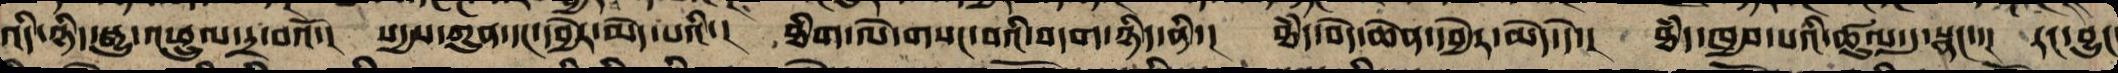འདི་ཉིད་སྒྱུ་འཕྲུལ་དྲ་བའོ་། སདྱས་ཀུན་དང་དབྱེར་མེད་པའི་། ཐིག་ལེ་གསང་བའི་བདག་ཉིད་ནི་། ཐཾད་བདེ་ཆེན་དབྱེར་མེད་དེ་། ཐཾད་ཁྱབ་པའི་ཚུལ་དུ་སྣང་་། རང་བྱུང
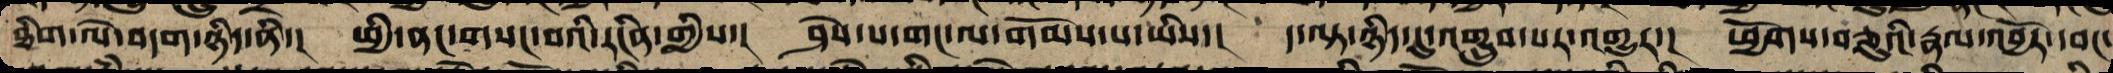ཐིག་ལེ་བདག་ཉིད་ནི་། ཕྱི་ནང་གསང་བའི་རངིན་གྱིས་། ཤེས་པ་གང་ལ་གོམས་པ་ཡིས་། ད་ལྟ་ཉིད་དུ་འགྲུབ་པར་འགྱུར་། ཕྱོགས་བཅུའི་རྣལ་འབྱོར་དབང་
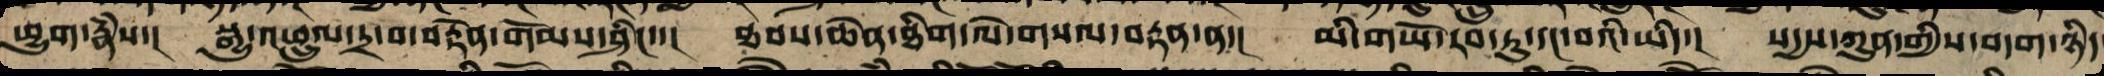ཕྱུག་རྣཾས་། སྒྱུ་འཕྲུལ་དྲ་བ་བརྟེན་གོམས་ཤིང་་། ཐབས་ཆེན་ཐིག་ལེ་གསལ་བརྟན་ན་། མི་གཡོ་རབ་ཏུ་དང་བའི་ཡིད་། སདྱས་ཀུན་གྱི་བདག་ཉིད
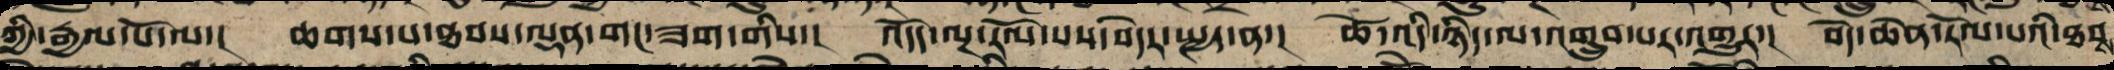ཀྱི་རྒྱལ་པོ་ལ་། ཆགས་པ་ཐབས་ལྡན་གང་ཟག་གིས་། འདོད་ལྔ་རོལ་པས་བདེར་སྤྱད་ན་། ཚེ་འདི་ཉིད་ལ་འགྲུབ་པར་འགྱུར་། བདེ་ཆེན་རོལ་པའི་ཐབས་
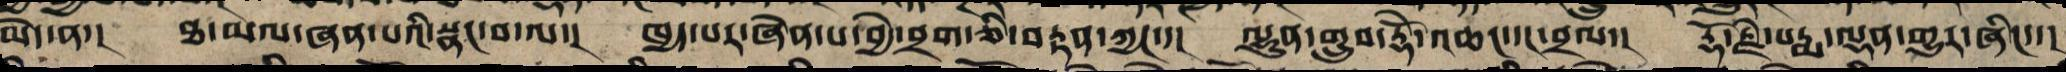མེད་ན་། ཐ་མལ་ཞན་པའི་སྣང་བ་ལ་། ཁྱད་པར་ཞེན་པ་བྱེ་བྲག་བྱེ་བྲག་ཅི་བརྟན་ཀྱང་་།  ལྷུན་གྲུབ་རྡོེ་འཆང་དང་བྲལ་། རྡོ་རྗེ་པདྨ་ལྡན་འགྱུར་ཞིང་་།
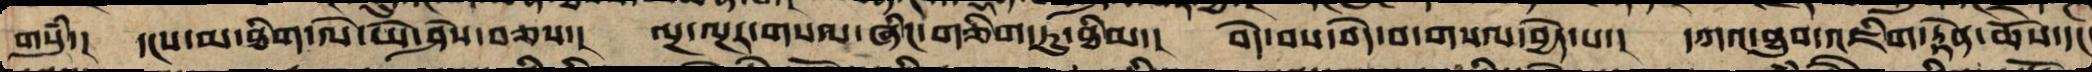གསུཾ་། དངས་མ་ཐིག་ལེ་ཡེ་ཤེས་བཅས་། ལྔ་ལྟར་གསལ་ཞིང་གཅིག་ཏུ་ཐིམ་། བདེ་བས་བདེ་བ་གསལ་བྱེད་པ་། དཀའ་ཐུབ་འཇིག་རྟེན་ཆོས་དང་
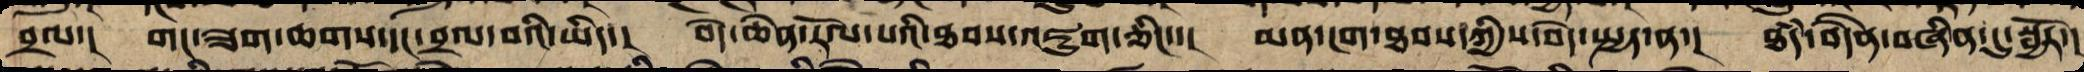བྲལ་། གང་ཟག་ཆགས་དང་བྲལ་བ་ཡིས་། བདེ་ཆེན་རོལ་པའི་ཐབས་འཇུག་ཅིང་་། མན་ངག་ཐབས་ཀྱིས་བདེ་སྤྱད་ན་། ཐཾད་བདཻན་བཞིན་དུ་སྦྱོར་།
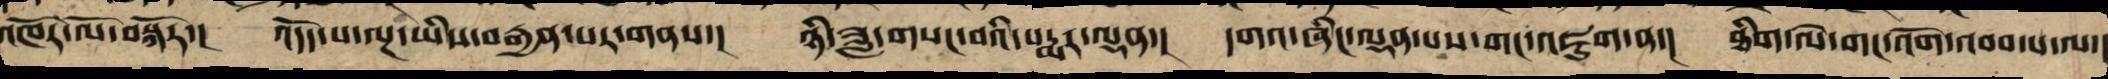འཁོར་ལོ་བསྐོར་། འདོད་པ་ལྔ་ཡིས་བརྒྱན་པར་གནས་། ཉི་ཟླ་གསང་བའི་པདྨར་ལྡན་། དགའ་ཞིང་ལྡན་པས་གང་འཇུག་ན་། ཐིག་ལེ་གོང་འོག་འབབ་པ་ལ་།
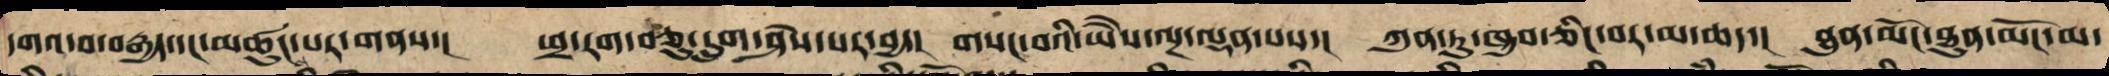དགའ་བ་བརྒྱད་དང་མཚུང་པར་གནས་། ཕྲ་རག་བཅུ་དྲུག་ཤེས་པར་བྱ་། གསང་བའི་ཡཻས་ལྔ་ལྡན་པས་། ཀུན་ཏུ་ཁྱབ་ཅིང་བར་མ་ཆད། ཐུན་མོང་ཐུན་མོང་མ་
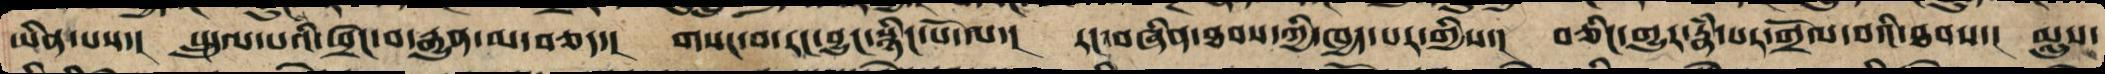ཡིན་པས་། སྤྲུལ་པའི་ཕྲེང་བ་རྒྱུན་མ་བཅད་། གསང་བ་རང་བྱུང་སྙིང་པོ་ལ་། རང་བཞིན་ཐབས་ཀྱི་ཁྱད་པར་གྱིས་། བཅིང་གྱུར་རྣཾ་པར་གྲོལ་བའི་ཐབས་། མླུས་
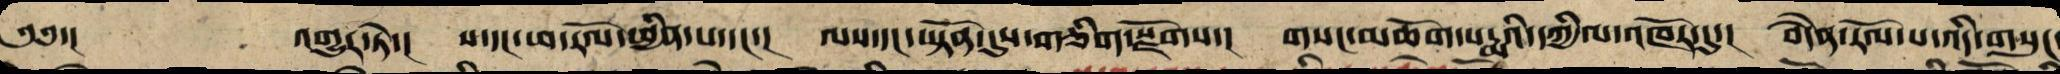༄༅་། འགྱུར་ཏེ་། ས་དང་ཕ་རོལ་ཕྱིན་པ་དང་་། ལས་དང་ཡྟོན་དུས་གཅིག་སྫོགས་། གསང་མཆོག་པདྨའི་དཀྱིལ་འཁོར་དུ་། བདཻན་རོལ་པ་འདི་གསུང
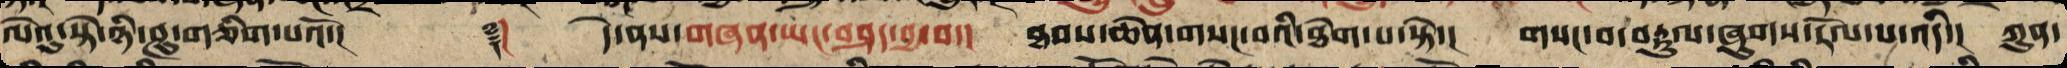ལེའུ་སྟེ་ཉི་ཤུ་གཅིག་པའོ་།། ༈། དེ་ནས་གཞན་ཡང་བཤད་བྱ་བ་། ཐབས་ཆེན་གསང་བའི་ཐེག་པ་སྟེ་། གསང་བ་བརྟུལ་ཞུགས་རོལ་པ་འདི་། ཀུན་
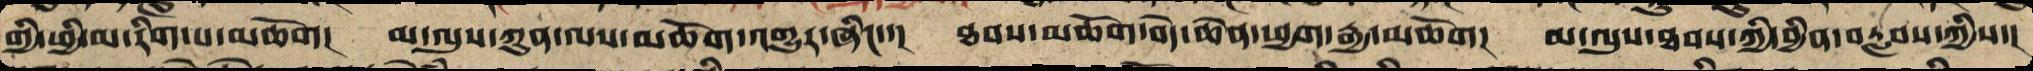གྱི་ཕྱི་མ་རིག་པ་མཆོག། མ་ལུས་ཀུན་ལས་མཆོག་འགྱུར་ཞིང་་། ཐབས་མཆོག་བདེ་ཆེན་ཕྱག་རྒྱ་མཆོག། མ་ལུས་ཐབས་ཀྱི་བྱིན་བརླབས་ཀྱིས་།
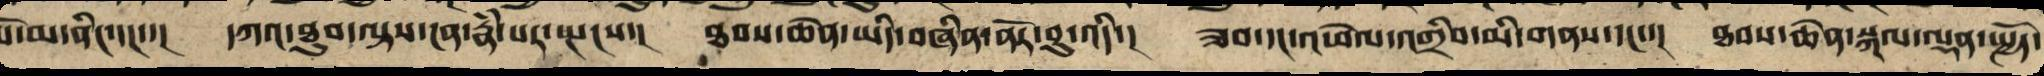པོ་མ་ནིང་དང་་། དཀའ་ཐུབ་ལྟས་ངན་རྣཾ་པར་སྤངས་། ཐབས་ཆེན་ཡིད་བཞིན་ནོར་བུ་འདི་། ཟབ་དང་འཕེལ་འགྲིབ་མི་གནས་དང་་། ཐབས་ཆེན་སྐལ་ལྡན་སྤྱོད་
